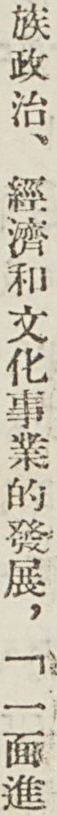族政治、經濟和文化事業的發展，「一面進
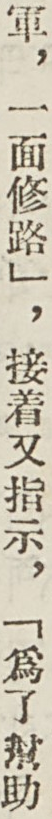軍，一面修路」，接着又指示，「爲了幫助
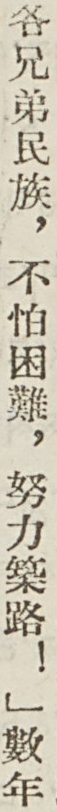各兄弟民族，不怕困難，努力築路！」數年
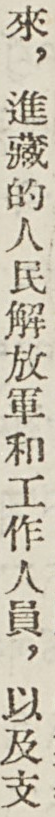來，進藏的人民解放軍和工作人員，以及支
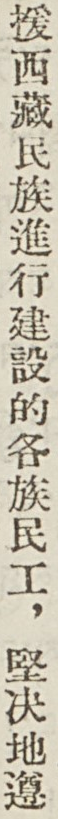援西藏民族進行建設的各族民工，堅決地遵
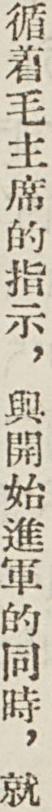循着毛主席的指示，與開始進軍的同時，就
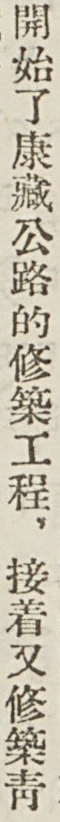開始了康藏公路的修築工程，接着又修築靑
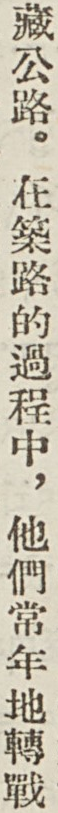藏公路。在築路的過程中，他們常年地轉戰
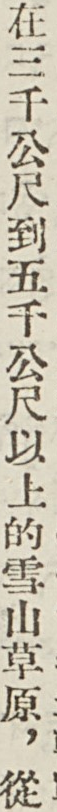在三千公尺到五千公尺以上的雪山草原，從
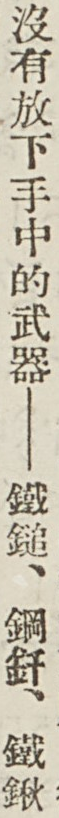沒有放下手中的武器——鐵錘、鋼釺、鐵鍬
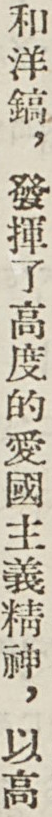和洋鎬，發揮了高度的愛國主義精神，以高
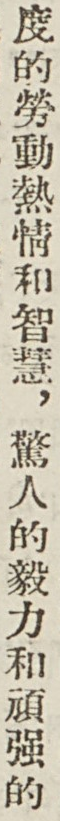度的勞動熱情和智慧，驚人的毅力和頑強的
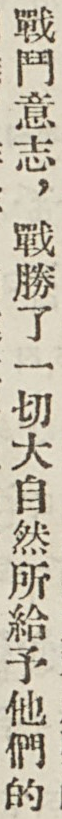戰鬥意志，戰勝了一切大自然所給予他們的
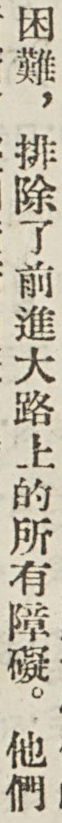困難，排除了前進大路上的所有障礙。他們
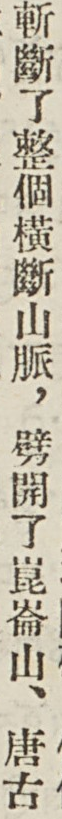斬斷了整個橫斷山脈，劈開了崑崙山、唐古
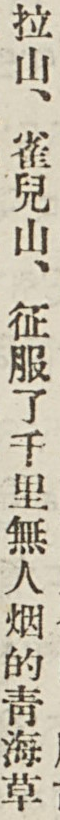拉山、雀兒山、征服了千里無人烟的靑海草
